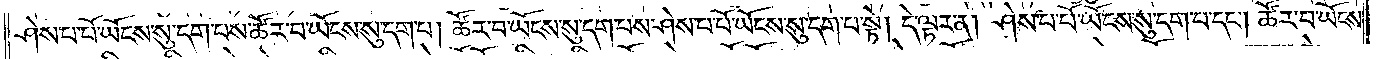ཤེས་པ་པོ་ཡོངས་སུ་དག་པས་ཚོར་བ་ཡོངས་སུ་དག་པ། ཚོར་བ་ཡོངས་སུ་དག་པས་ཤེས་པ་པོ་ཡོངས་སུ་དག་པ་སྟེ། དེ་ལྟར་ན། ཤེས་པ་པོ་ཡོངས་སུ་དག་པ་དང༌། ཚོར་བ་ཡོངས་
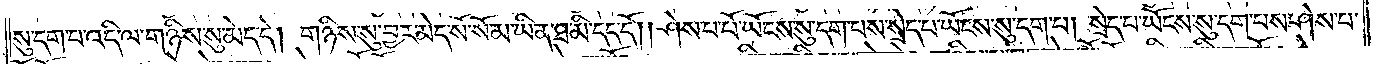སུ་དག་པ་འདི་ལ་གཉིས་སུ་མེད་དེ། གཉིས་སུ་བྱར་མེད་སོ་སོ་མ་ཡིན་ཐ་མི་དད་དོ། །ཤེས་པ་པོ་ཡོངས་སུ་དག་པས་སྲེད་པ་ཡོངས་སུ་དག་པ། སྲེད་པ་ཡོངས་སུ་དག་པས་ཤེས་པ་
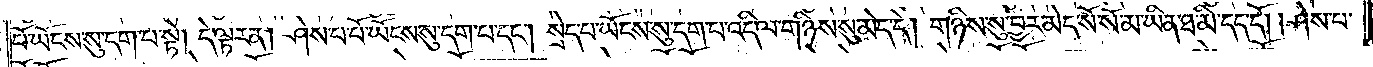པོ་ཡོངས་སུ་དག་པ་སྟེ། དེ་ལྟར་ན། ཤེས་པ་པོ་ཡོངས་སུ་དག་པ་དང༌། སྲེད་པ་ཡོངས་སུ་དག་པ་འདི་ལ་གཉིས་སུ་མེད་དེ། གཉིས་སུ་བྱར་མེད་སོ་སོ་མ་ཡིན་ཐ་མི་དད་དོ། །ཤེས་པ་
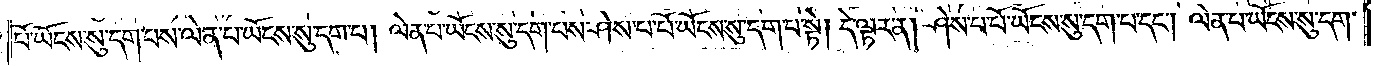པོ་ཡོངས་སུ་དག་པས་ལེན་པ་ཡོངས་སུ་དག་པ། ལེན་པ་ཡོངས་སུ་དག་པས་ཤེས་པ་པོ་ཡོངས་སུ་དག་པ་སྟེ། དེ་ལྟར་ན། ཤེས་པ་པོ་ཡོངས་སུ་དག་པ་དང༌། ལེན་པ་ཡོངས་སུ་དག་
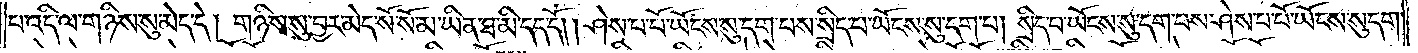པ་འདི་ལ་གཉིས་སུ་མེད་དེ། གཉིས་སུ་བྱར་མེད་སོ་སོ་མ་ཡིན་ཐ་མི་དད་དོ། །ཤེས་པ་པོ་ཡོངས་སུ་དག་པས་སྲིད་པ་ཡོངས་སུ་དག་པ། སྲིད་པ་ཡོངས་སུ་དག་པས་ཤེས་པ་པོ་ཡོངས་སུ་དག་
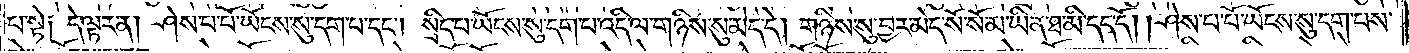པ་སྟེ༑ དེ་ལྟར་ན། ཤེས་པ་པོ་ཡོངས་སུ་དག་པ་དང༌། སྲིད་པ་ཡོངས་སུ་དག་པ་འདི་ལ་གཉིས་སུ་མེད་དེ། གཉིས་སུ་བྱར་མེད་སོ་སོ་མ་ཡིན་ཐ་མི་དད་དོ། །ཤེས་པ་པོ་ཡོངས་སུ་དག་པས་
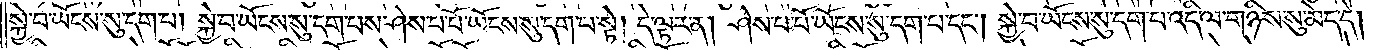སྐྱེ་བ་ཡོངས་སུ་དག་པ། སྐྱེ་བ་ཡོངས་སུ་དག་པས་ཤེས་པ་པོ་ཡོངས་སུ་དག་པ་སྟེ། དེ་ལྟར་ན། ཤེས་པ་པོ་ཡོངས་སུ་དག་པ་དང༌། སྐྱེ་བ་ཡོངས་སུ་དག་པ་འདི་ལ་གཉིས་སུ་མེད་དེ།
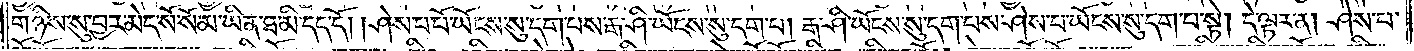གཉིས་སུ་བྱར་མེད་སོ་སོ་མ་ཡིན་ཐ་མི་དད་དོ། །ཤེས་པ་པོ་ཡོངས་སུ་དག་པས་རྒ་ཤི་ཡོངས་སུ་དག་པ། རྒ་ཤི་ཡོངས་སུ་དག་པས་ཤེས་པ་པོ་ཡོངས་སུ་དག་པ་སྟེ། དེ་ལྟར་ན། ཤེས་པ་
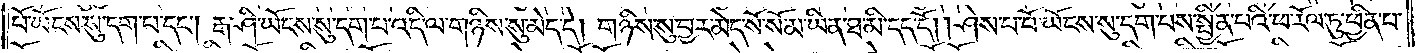པོ་ཡོངས་སུ་དག་པ་དང༌། རྒ་ཤི་ཡོངས་སུ་དག་པ་འདི་ལ་གཉིས་སུ་མེད་དེ། གཉིས་སུ་བྱར་མེད་སོ་སོ་མ་ཡིན་ཐ་མི་དད་དོ། །ཤེས་པ་པོ་ཡོངས་སུ་དག་པས་སྦྱིན་པའི་ཕ་རོལ་ཏུ་ཕྱིན་པ་
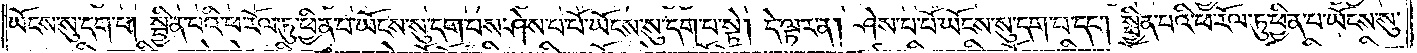ཡོངས་སུ་དག་པ། སྦྱིན་པའི་ཕ་རོལ་ཏུ་ཕྱིན་པ་ཡོངས་སུ་དག་པས་ཤེས་པ་པོ་ཡོངས་སུ་དག་པ་སྟེ། དེ་ལྟར་ན། ཤེས་པ་པོ་ཡོངས་སུ་དག་པ་དང༌། སྦྱིན་པའི་ཕ་རོལ་ཏུ་ཕྱིན་པ་ཡོངས་སུ་
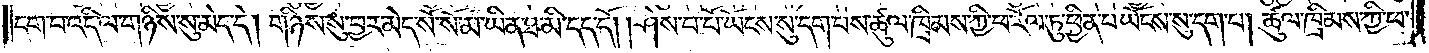དག་པ་འདི་ལ་གཉིས་སུ་མེད་དེ། གཉིས་སུ་བྱར་མེད་སོ་སོ་མ་ཡིན་ཐ་མི་དད་དོ། །ཤེས་པ་པོ་ཡོངས་སུ་དག་པས་ཚུལ་ཁྲིམས་ཀྱི་ཕ་རོལ་ཏུ་ཕྱིན་པ་ཡོངས་སུ་དག་པ། ཚུལ་ཁྲིམས་ཀྱི་ཕ་
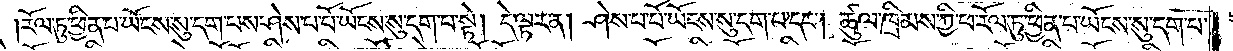རོལ་ཏུ་ཕྱིན་པ་ཡོངས་སུ་དག་པས་ཤེས་པ་པོ་ཡོངས་སུ་དག་པ་སྟེ། དེ་ལྟར་ན། ཤེས་པ་པོ་ཡོངས་སུ་དག་པ་དང༌། ཚུལ་ཁྲིམས་ཀྱི་ཕ་རོལ་ཏུ་ཕྱིན་པ་ཡོངས་སུ་དག་པ་
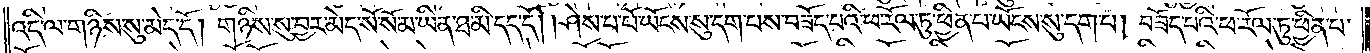འདི་ལ་གཉིས་སུ་མེད་དེ། གཉིས་སུ་བྱར་མེད་སོ་སོ་མ་ཡིན་ཐ་མི་དད་དོ། །ཤེས་པ་པོ་ཡོངས་སུ་དག་པས་བཟོད་པའི་ཕ་རོལ་ཏུ་ཕྱིན་པ་ཡོངས་སུ་དག་པ། བཟོད་པའི་ཕ་རོལ་ཏུ་ཕྱིན་པ་
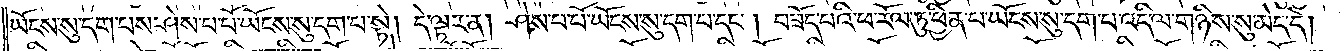ཡོངས་སུ་དག་པས་ཤེས་པ་པོ་ཡོངས་སུ་དག་པ་སྟེ། དེ་ལྟར་ན། ཤེས་པ་པོ་ཡོངས་སུ་དག་པ་དང༌། བཟོད་པའི་ཕ་རོལ་ཏུ་ཕྱིན་པ་ཡོངས་སུ་དག་པ་འདི་ལ་གཉིས་སུ་མེད་དེ།
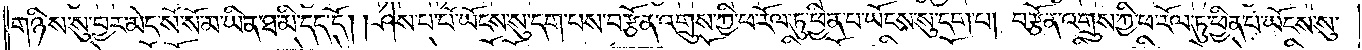གཉིས་སུ་བྱར་མེད་སོ་སོ་མ་ཡིན་ཐ་མི་དད་དོ། །ཤེས་པ་པོ་ཡོངས་སུ་དག་པས་བརྩོན་འགྲུས་ཀྱི་ཕ་རོལ་ཏུ་ཕྱིན་པ་ཡོངས་སུ་དག་པ། བརྩོན་འགྲུས་ཀྱི་ཕ་རོལ་ཏུ་ཕྱིན་པ་ཡོངས་སུ་
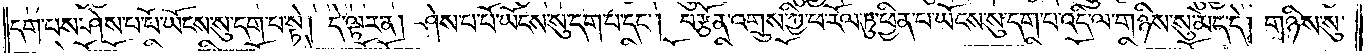དག་པས་ཤེས་པ་པོ་ཡོངས་སུ་དག་པ་སྟེ། དེ་ལྟར་ན། ཤེས་པ་པོ་ཡོངས་སུ་དག་པ་དང༌། བརྩོན་འགྲུས་ཀྱི་ཕ་རོལ་ཏུ་ཕྱིན་པ་ཡོངས་སུ་དག་པ་འདི་ལ་གཉིས་སུ་མེད་དེ། གཉིས་སུ་
